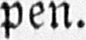pen.
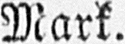Mark.
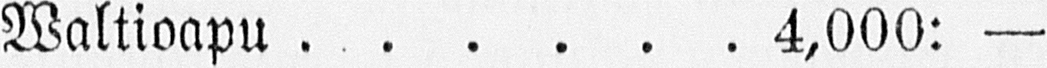Waltioapu 4,000: —
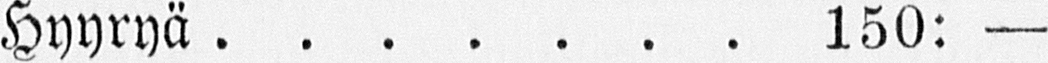Hyyryä 150: —
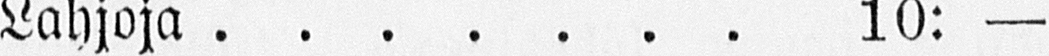Lahjoja 10: —
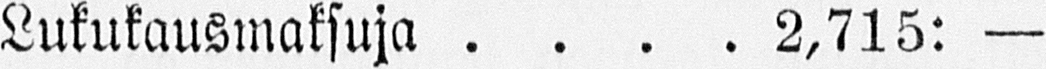Lukukausmaksuja 2,715: —
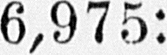6,975:
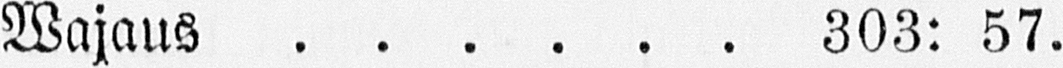Wajaus 303: 57.
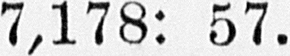7,178: 57.
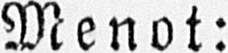Menot:
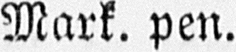Mark. pen.
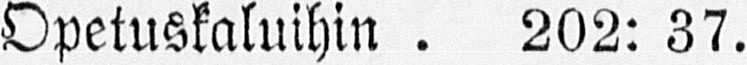Opetuskaluihin 202: 37.
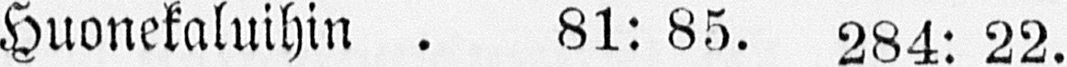Huonekaluihin 81: 85. 284: 22.
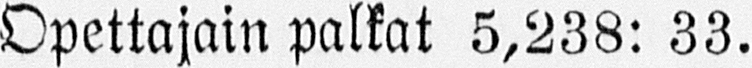Opettajain palkat 5,238: 33.
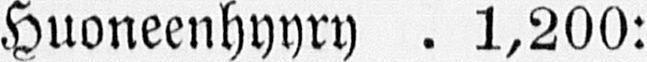Huoneenhyyry 1,200:
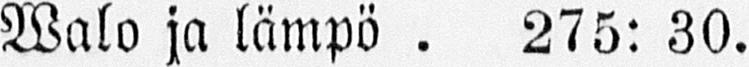Walo ja lämpö 275: 30.
